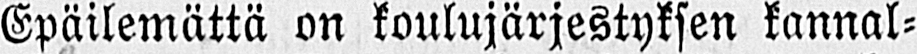*) Epäilemättä on koulujärjestyksen kannal-
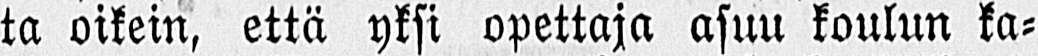ta oikein, että yksi opettaja asuu koulun ka-
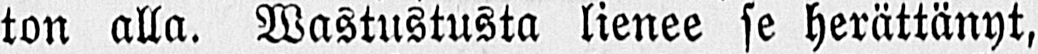ton alla. Wastustusta lienee se herättänyt,
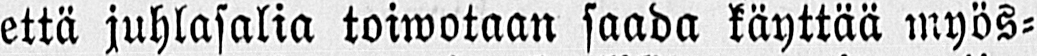että juhlasalia toiwotaan saada käyttää myös-
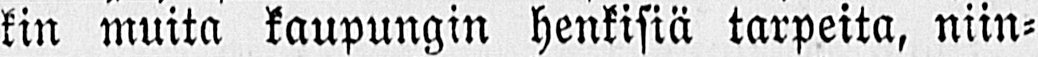kin muita kaupungin henkisiä tarpeita, niin-
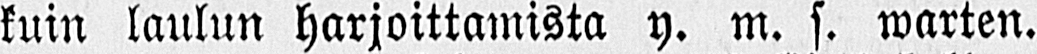kuin laulun harjoittamista y. m. s. warten.
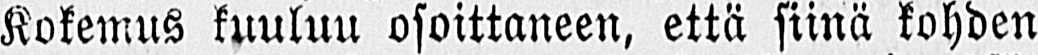Kokemus kuuluu osoittaneen, että siinä kohden
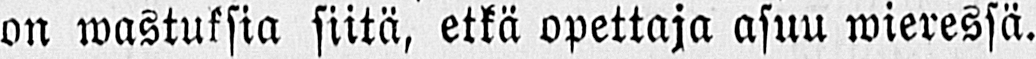on wastuksia siitä, etkä opettaja asuu wieressä.
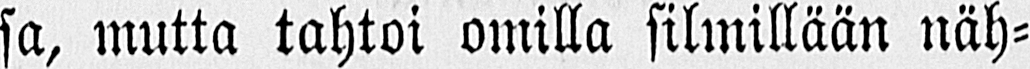sa, mutta tahtoi omilla silmillään näh-
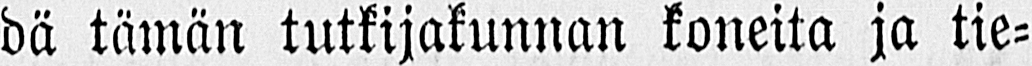dä tämän tutkijakunnan koneita ja tie-
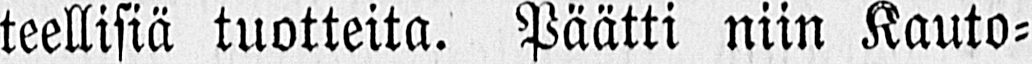teellisiä tuotteita. Päätti niin Kauto-
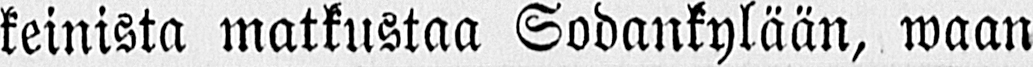keinista matkustaa Sodankylään, waan
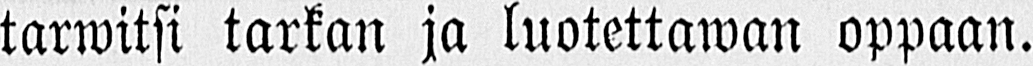tarwitsi tarkan ja luotettawan oppaan.
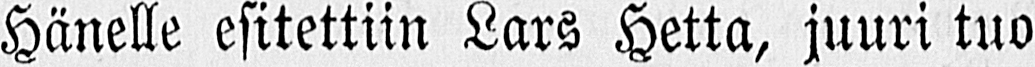Hänelle esitettiin Lars Hetta, juuri tuo
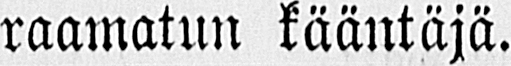raamatun kääntäjä.
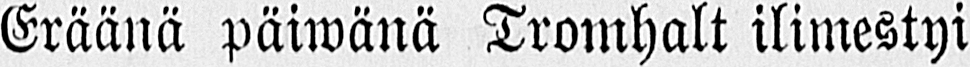Eräänä päiwänä Tromhalt ilimestyi
